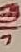༡
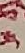༣
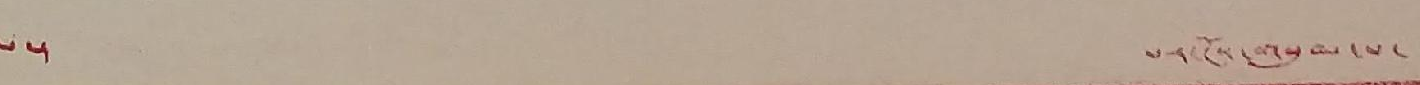ལ་། པར་ངོས་གསུམ་པ་
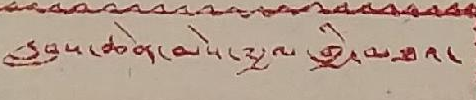རླབས་ཆེན་མེས་༸རྒྱལ་གྱི་མཐའ་
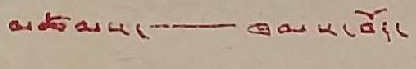མཚམས་ ཁམས་བོད་
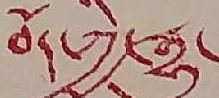བོད་ཀྱི་རྒྱུ་
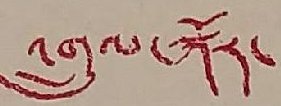འགྲུལ་སྐོར་
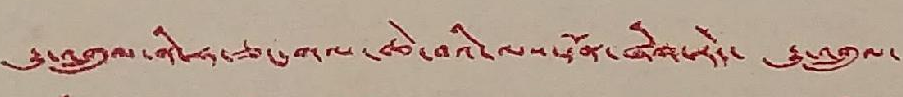རྒྱུ་འགྲུལ་ནི་ཧ་ཅང་གལ་ཆེ་བའི་ལས་དོན་ཞིག་རེད་ རྒྱུ་འགྲུལ་
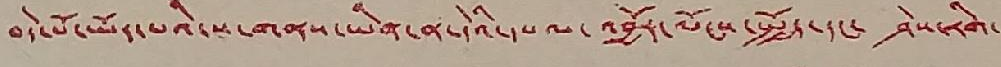བདེ་པོ་ཡོད་པའི་ས་གནས་ཡིན་ན་དེའི་དཔལ་འབྱོར་ལོངས་སྤྱོད་དང་ ཤེས་རིག་
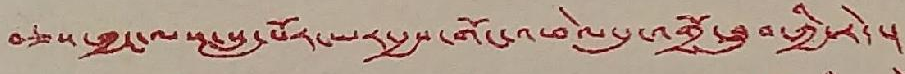བཅས་ཀྱང་ལས་སླ་པོར་ཡར་རྒྱས་གོང་འཕེལ་དུ་འགྲོ་ཐུབ་ཀྱི་རེད་།
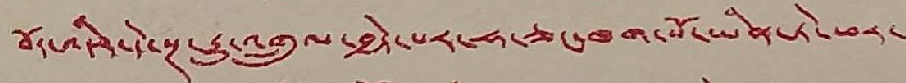བོད་འདིར་དེ་སྔ་རྒྱུ་འགྲུལ་བྱེད་པར་ཧ་ཅང་ཁག་པོ་ཡིན་ཏེ་ཕར་
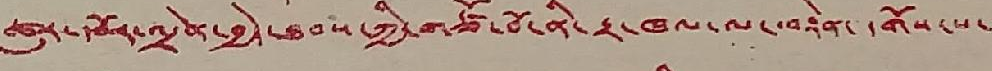ཚུར་དབོར་འདྲེན་བྱེད་ཐབས་ཀྱི་གཙོ་བོ་ནི་རྟ་ཁལ་ལ་བསྟེན་དགོས་པ་
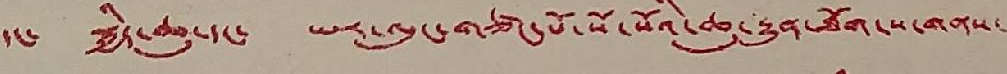དང་ སྐྱིད་ཆུ་དང་ ཡར་ལུང་གཙང་པོ་སོ་སོའི་ཆུ་རྒྱུན་ཐོག་ས་གནས་
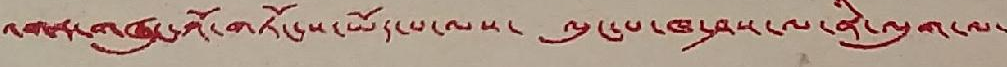འགན་གཞུང་གོ་གཏོང་ས་ཡོད་པ་ལས་ ལུང་པ་ཁ་ཤས་ལ་ནི་འདུག་ལ་
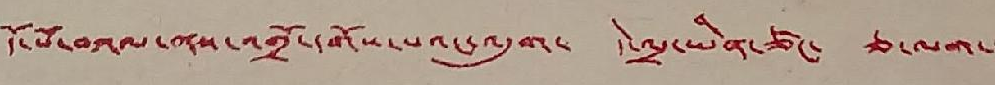དོ་པོ་བཀལ་ནས་འགྲོ་དགོས་པའང་འདུག་ དེ་འདྲ་ཡིན་ཙང་ ཅ་ལག་
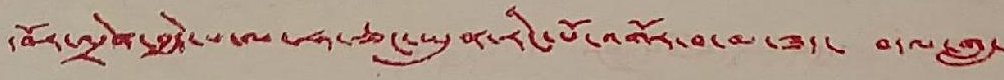དབོར་འདྲེན་བྱེད་པ་ལ་ཧ་ཅང་ཡུན་རིང་པོ་འགོར་བ་མ་ཟད་ བདལ་གླ་
